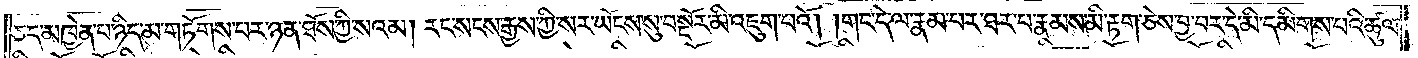ཅད་མཁྱེན་པ་ཉིད་མ་གཏོགས་པར་ཉན་ཐོས་ཀྱི་སའམ། རང་སངས་རྒྱས་ཀྱི་སར་ཡོངས་སུ་བསྔོར་མི་འཇུག་པའོ། །གང་དེ་ལ་རྣམ་པར་ཐར་པ་རྣམས་མི་རྟག་ཅེས་བྱ་བར་དེ་མི་དམིགས་པའི་ཚུལ་
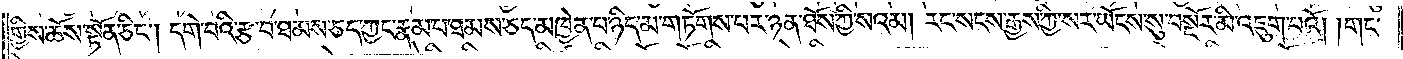གྱིས་ཆོས་སྟོན་ཅིང༌། དགེ་བའི་རྩ་བ་ཐམས་ཅད་ཀྱང་རྣམ་པ་ཐམས་ཅད་མཁྱེན་པ་ཉིད་མ་གཏོགས་པར་ཉན་ཐོས་ཀྱི་སའམ། རང་སངས་རྒྱས་ཀྱི་སར་ཡོངས་སུ་བསྔོར་མི་འཇུག་པའོ། །གང་
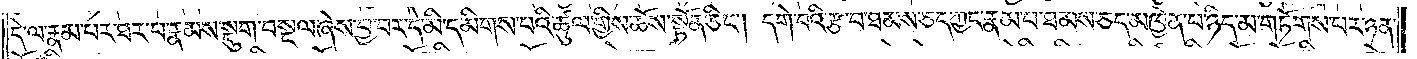དེ་ལ་རྣམ་པར་ཐར་པ་རྣམས་སྡུག་བསྔལ་ཞེས་བྱ་བར་དེ་མི་དམིགས་པའི་ཚུལ་གྱིས་ཆོས་སྟོན་ཅིང༌། དགེ་བའི་རྩ་བ་ཐམས་ཅད་ཀྱང་རྣམ་པ་ཐམས་ཅད་མཁྱེན་པ་ཉིད་མ་གཏོགས་པར་ཉན་
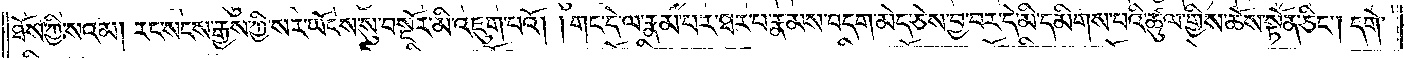ཐོས་ཀྱི་སའམ། རང་སངས་རྒྱས་ཀྱི་སར་ཡོངས་སུ་བསྔོར་མི་འཇུག་པའོ། །གང་དེ་ལ་རྣམ་པར་ཐར་པ་རྣམས་བདག་མེད་ཅེས་བྱ་བར་དེ་མི་དམིགས་པའི་ཚུལ་གྱིས་ཆོས་སྟོན་ཅིང༌། དགེ་
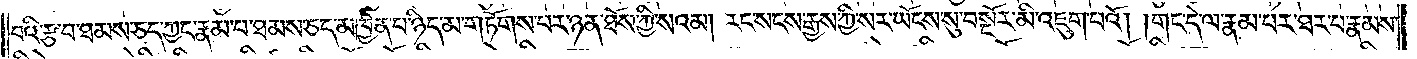བའི་རྩ་བ་ཐམས་ཅད་ཀྱང་རྣམ་པ་ཐམས་ཅད་མཁྱེན་པ་ཉིད་མ་གཏོགས་པར་ཉན་ཐོས་ཀྱི་སའམ། རང་སངས་རྒྱས་ཀྱི་སར་ཡོངས་སུ་བསྔོར་མི་འཇུག་པའོ། །གང་དེ་ལ་རྣམ་པར་ཐར་པ་རྣམས་
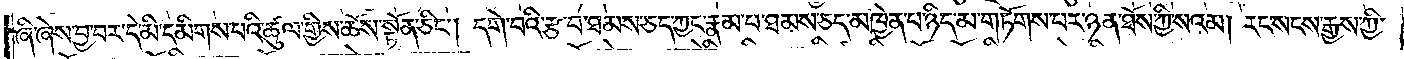ཞི་ཞེས་བྱ་བར་དེ་མི་དམིགས་པའི་ཚུལ་གྱིས་ཆོས་སྟོན་ཅིང༌། དགེ་བའི་རྩ་བ་ཐམས་ཅད་ཀྱང་རྣམ་པ་ཐམས་ཅད་མཁྱེན་པ་ཉིད་མ་གཏོགས་པར་ཉན་ཐོས་ཀྱི་སའམ། རང་སངས་རྒྱས་ཀྱི་
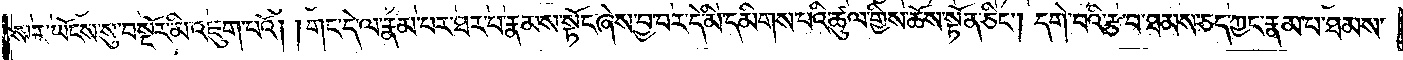སར་ཡོངས་སུ་བསྔོར་མི་འཇུག་པའོ། །གང་དེ་ལ་རྣམ་པར་ཐར་པ་རྣམས་སྟོང་ཞེས་བྱ་བར་དེ་མི་དམིགས་པའི་ཚུལ་གྱིས་ཆོས་སྟོན་ཅིང༌། དགེ་བའི་རྩ་བ་ཐམས་ཅད་ཀྱང་རྣམ་པ་ཐམས་
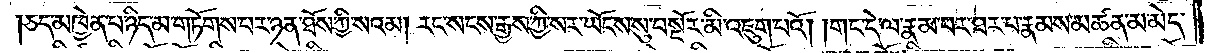ཅད་མཁྱེན་པ་ཉིད་མ་གཏོགས་པར་ཉན་ཐོས་ཀྱི་སའམ། རང་སངས་རྒྱས་ཀྱི་སར་ཡོངས་སུ་བསྔོར་མི་འཇུག་པའོ། །གང་དེ་ལ་རྣམ་པར་ཐར་པ་རྣམས་མཚན་མ་མེད་
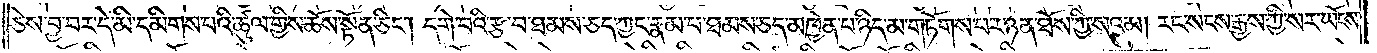ཅེས་བྱ་བར་དེ་མི་དམིགས་པའི་ཚུལ་གྱིས་ཆོས་སྟོན་ཅིང༌། དགེ་བའི་རྩ་བ་ཐམས་ཅད་ཀྱང་རྣམ་པ་ཐམས་ཅད་མཁྱེན་པ་ཉིད་མ་གཏོགས་པར་ཉན་ཐོས་ཀྱི་སའམ། རང་སངས་རྒྱས་ཀྱི་སར་ཡོངས་
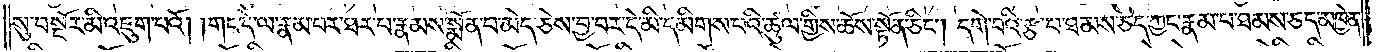སུ་བསྔོར་མི་འཇུག་པའོ། །གང་དེ་ལ་རྣམ་པར་ཐར་པ་རྣམས་སྨོན་པ་མེད་ཅེས་བྱ་བར་དེ་མི་དམིགས་པའི་ཚུལ་གྱིས་ཆོས་སྟོན་ཅིང༌། དགེ་བའི་རྩ་བ་ཐམས་ཅད་ཀྱང་རྣམ་པ་ཐམས་ཅད་མཁྱེན་
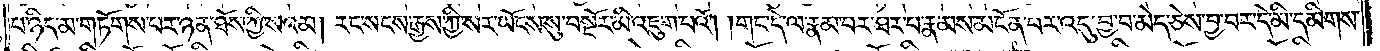པ་ཉིད་མ་གཏོགས་པར་ཉན་ཐོས་ཀྱི་སའམ། རང་སངས་རྒྱས་ཀྱི་སར་ཡོངས་སུ་བསྔོར་མི་འཇུག་པའོ། །གང་དེ་ལ་རྣམ་པར་ཐར་པ་རྣམས་མངོན་པར་འདུ་བྱ་བ་མེད་ཅེས་བྱ་བར་དེ་མི་དམིགས་
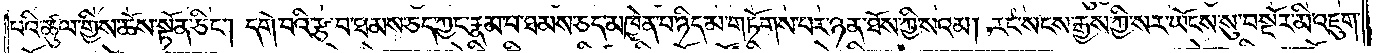པའི་ཚུལ་གྱིས་ཆོས་སྟོན་ཅིང༌། དགེ་བའི་རྩ་བ་ཐམས་ཅད་ཀྱང་རྣམ་པ་ཐམས་ཅད་མཁྱེན་པ་ཉིད་མ་གཏོགས་པར་ཉན་ཐོས་ཀྱི་སའམ། རང་སངས་རྒྱས་ཀྱི་སར་ཡོངས་སུ་བསྔོར་མི་འཇུག་
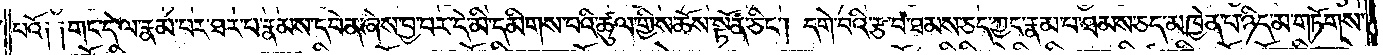པའོ༑ ༑གང་དེ་ལ་རྣམ་པར་ཐར་པ་རྣམས་དབེན་ཞེས་བྱ་བར་དེ་མི་དམིགས་པའི་ཚུལ་གྱིས་ཆོས་སྟོན་ཅིང༌། དགེ་བའི་རྩ་བ་ཐམས་ཅད་ཀྱང་རྣམ་པ་ཐམས་ཅད་མཁྱེན་པ་ཉིད་མ་གཏོགས་
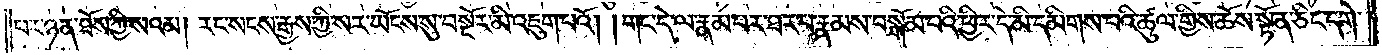པར་ཉན་ཐོས་ཀྱི་སའམ། རང་སངས་རྒྱས་ཀྱི་སར་ཡོངས་སུ་བསྔོར་མི་འཇུག་པའོ། །གང་དེ་ལ་རྣམ་པར་ཐར་པ་རྣམས་བསྒོམ་པའི་ཕྱིར་དེ་མི་དམིགས་པའི་ཚུལ་གྱིས་ཆོས་སྟོན་ཅིང་དགེ་
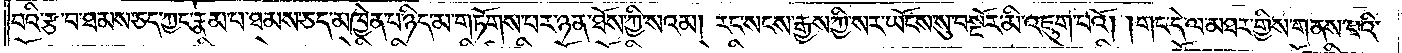བའི་རྩ་བ་ཐམས་ཅད་ཀྱང་རྣམ་པ་ཐམས་ཅད་མཁྱེན་པ་ཉིད་མ་གཏོགས་པར་ཉན་ཐོས་ཀྱི་སའམ། རང་སངས་རྒྱས་ཀྱི་སར་ཡོངས་སུ་བསྔོར་མི་འཇུག་པའོ། །གང་དེ་ལ་མཐར་གྱིས་གནས་པའི་
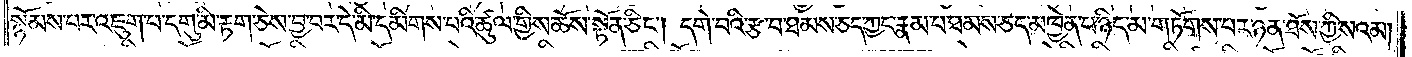སྙོམས་པར་འཇུག་པ་དགུ་མི་རྟག་ཅེས་བྱ་བར་དེ་མི་དམིགས་པའི་ཚུལ་གྱིས་ཆོས་སྟོན་ཅིང༌། དགེ་བའི་རྩ་བ་ཐམས་ཅད་ཀྱང་རྣམ་པ་ཐམས་ཅད་མཁྱེན་པ་ཉིད་མ་གཏོགས་པར་ཉན་ཐོས་ཀྱི་སའམ།
